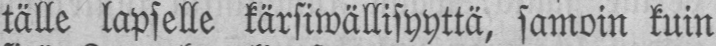tälle lapselle kärsiwällisyyttä, samoin kuin
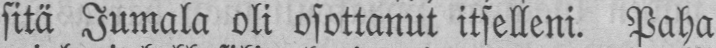sitä Jumala oli osottanut itselleni. Paha
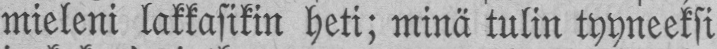mieleni lakkasikin heti; minä tulin tyyneeksi
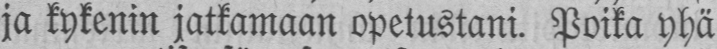ja kykenin jatkamaan opetustani. Poika yhä
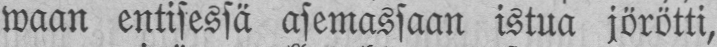waan entisessä asemassaan istua jörötti,
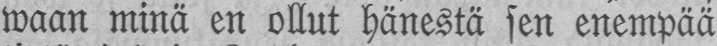waan minä en ollut hänestä sen enempää
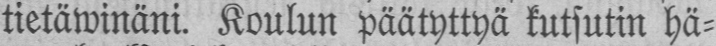tietäwinäni. Koulun päätyttyä kutsutin hä-
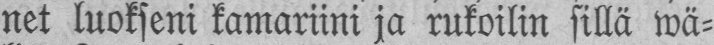net luokseni kamariini ja rukoilin sillä wä-
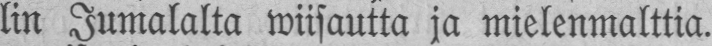lin Jumalalta wiisautta ja mielenmalttia.
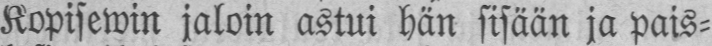Kopisewin jaloin astui hän sisään ja pais-
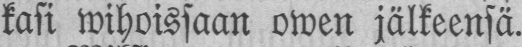kasi wihoissaan owen jälkeensä.
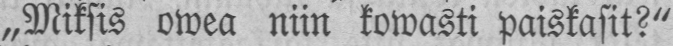„Miksis owea niin kowasti paiskasit?"
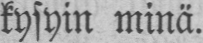kysyin minä.
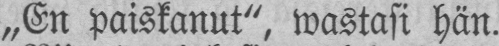„En paiskanut", wastasi hän.
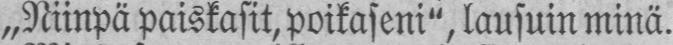„Niinpä paiskasit, poikaseni", lausuin minä.
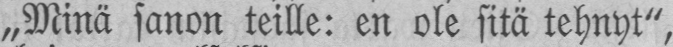„Minä sanon teille: en ole sitä tehnyt",
